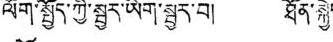ལོག་སྤྱོད་ཀྱི་སྦྱར་ཡིག་སྦྱར་བ། ཐོན་སྐྱེད་
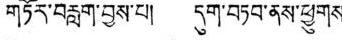གཏོར་བརླག་བྱས་པ། དུག་བཏབ་ནས་ཕྱུགས་
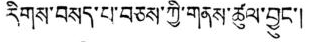རིགས་བསད་པ་བཅས་ཀྱི་གནས་ཚུལ་བྱུང་།
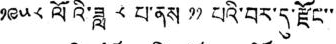༡༩༥༨ ལོའི་ཟླ ༨ པ་ནས ༡༡ པའི་བར་དུ་རྫོང་་་
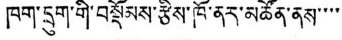ཁག་དྲུག་གི་བསྡོམས་རྩིས་ཁོ་ནར་མཚོན་ནས་་་་་
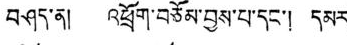བཤད་ན། འཕྲོག་བཅོམ་བྱས་པ་དང་། དམར
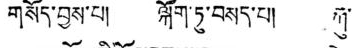གསོད་བྱས་པ། ལྐོག་ཏུ་བསད་པ། རྐུ་
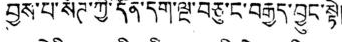བྱས་པ་སོཊ་ཀྱི་དོན་དག་ལྔ་བཅུ་ང་བརྒྱད་བྱུང་སྟེ།
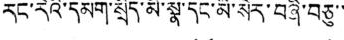རང་རེའི་དམག་སྲིད་མི་སྣ་དང་མི་སེར་བཞི་བཅུ་་
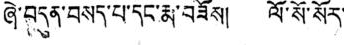ཞེ་བདུན་བསད་པ་དང་རྨ་བཟོས། ལོ་སོ་སོར་
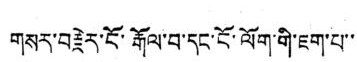གསར་བརྗེར་ངོ་རྒོལ་བ་དང་ངོ་ལོག་གི་ཇག་པ་་
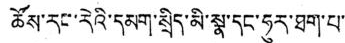ཚོས་རང་རེའི་དམག་སྲིད་མི་སྣ་དང་ཧུར་ཐག་པ་་
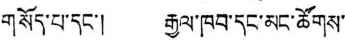གསོད་པ་དང་། རྒྱལ་ཁབ་དང་མང་ཚོགས་
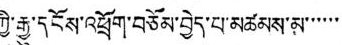ཀྱི་རྒྱུ་དངོས་འཕྲོག་བཅོམ་བྱེད་པ་མཚམས་མ་་་་་་
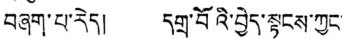བཞག་པ་རེད། དགྲ་བོའི་བྱེད་སྟངས་ཀྱང་
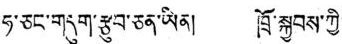ཧ་ཅང་གདུག་རྩུབ་ཅན་ཡིན། ཁྲོ་སྐྱབས་ཀྱི་
